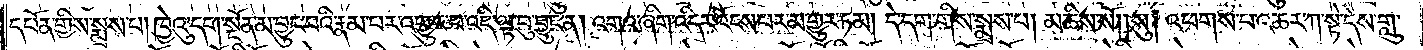དཔོན་གྱིས་སྨྲས་པ། ཁྱེའུ་དག་སྔོན་མ་བྱུང་བའི་རྣམ་པར་འགྱུར་བ་འདི་ལྟ་བུ་བྱུང་ན། འགའ་ཞིག་འདིར་འོངས་པར་མ་གྱུར་ཏམ། དེ་དག་གིས་སྨྲས་པ། མཆིས་སོ། །སུ། འཕགས་པ་འཆར་ཀ་སྟེ་དེས་གླུ་
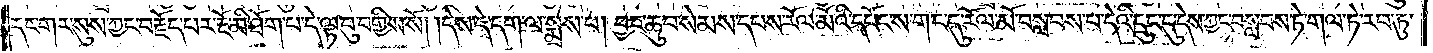དང་གར་སུས་ཀྱང་བརྗོད་པར་རྔོ་མི་ཐོག་པ་དེ་ལྟ་བུ་བགྱིས་སོ། །དེས་དེ་དག་ལ་སྨྲས་པ། བྱང་ཆུབ་སེམས་དཔས་རོལ་མོའི་དཔོང་ས་གང་དུ་རོལ་མོ་བསླབས་པ་དེའི་དྲུང་དུ་དེས་ཀྱང་བསླབས་ཏེ་གལ་ཏེ་རབ་ཏུ་
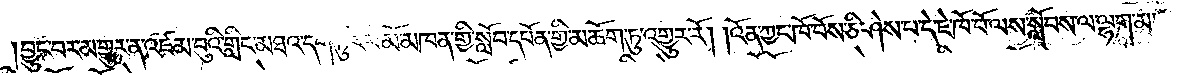བྱུང་བར་མ་གྱུར་ན་འཛམ་བུའི་གླིང་མཐའ་དག་ཏུ་རོལ་མོ་མཁན་གྱི་སློབ་དཔོན་གྱི་མཆོག་ཏུ་འགྱུར་རོ། །འོན་ཀྱང་ཁོ་བོས་ཅི་ཤེས་པ་དེ་ཇེ་ཁོ་བོ་ལས་སློབས་ལ་ལྷག་མ་
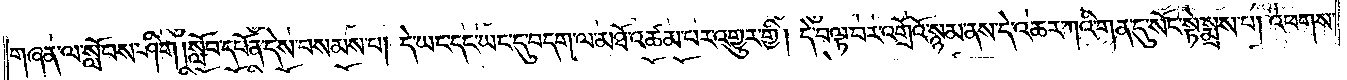གཞན་ལ་སློབས་ཤིག །སློབ་དཔོན་དེས་བསམས་པ། དེ་ཡང་དང་ཡང་དུ་བདག་ལ་མཐོ་འཚམ་པར་འགྱུར་གྱི། དེ་བལྟ་བར་འགྲོའོ་སྙམ་ནས་དེ་འཆར་ཀའི་གན་དུ་སོང་སྟེ་སྨྲས་པ། འཕགས་
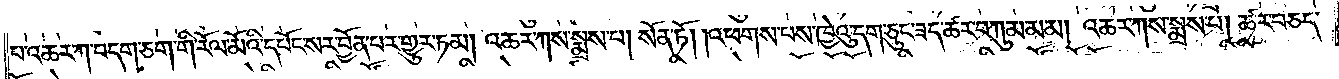པ་འཆར་ཀ་བདག་ཅག་གི་རོལ་མོའི་དཔོང་སར་བྱོན་པར་གྱུར་ཏམ། འཆར་ཀས་སྨྲས་པ། སོན་ཏོ། །འཕགས་པས་ཁྱེའུ་དག་ཅུང་ཟད་ཚར་བཀུམ་མམ། འཆར་ཀས་སྨྲས་པ། ཚར་བཅད་
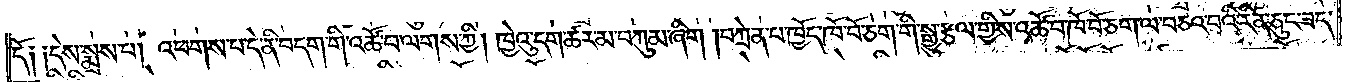དོ༑ ༑དེས་སྨྲས་པ། འཕགས་པ་དེ་ནི་བདག་གི་འཚོ་བ་ལགས་ཀྱི། ཁྱེའུ་དག་ཚར་མ་བཀུམ་ཞིག །བཀྲེན་པ་ཁྱོད་ཁོ་བོ་ཅག་གི་སྒྱུ་རྩལ་གྱིས་འཚོ་བ་ཁོ་བོ་ཅག་ལ་བཅའ་བའི་རིན་ཅུང་ཟད་
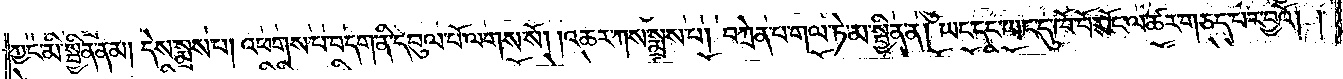ཀྱང་མི་སྦྱིན་ནམ། དེས་སྨྲས་པ། འཕགས་པ་བདག་ནི་དབུལ་པོ་ལགས་སོ། །འཆར་ཀས་སྨྲས་པ། བཀྲེན་པ་གལ་ཏེ་མ་སྦྱིན་ན། ཡང་དང་ཡང་དུ་ཁོ་བོ་སོང་ལ་ཚར་གཅད་པར་བྱའོ། །
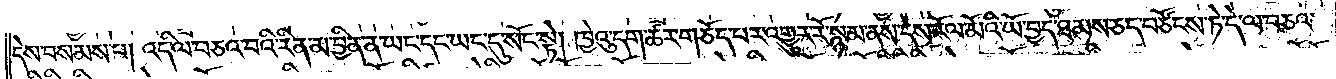དེས་བསམས་པ། འདི་ལ་བཅའ་བའི་རིན་མ་བྱིན་ན་ཡང་དང་ཡང་དུ་སོང་སྟེ། ཁྱེའུ་དག་ཚར་གཅོད་པར་འགྱུར་རོ་སྙམ་ནས་དེས་རོལ་མོའི་ཡོ་བྱད་ཐམས་ཅད་བཙོངས་ཏེ་དེ་ལ་བཅའ་
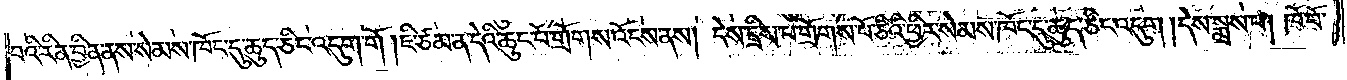བའི་རིན་བྱིན་ནས་སེམས་ཁོང་དུ་ཆུད་ཅིང་འདུག་གོ །ཇི་ཙམ་ན་དེའི་ཆུང་པོ་གྲོགས་འོངས་ནས། དེས་དྲིས་པ་གྲོགས་པོ་ཅིའི་ཕྱིར་སེམས་ཁོང་དུ་ཆུད་ཅིང་འདུག །དེས་སྨྲས་པ། ཁོ་བོ་
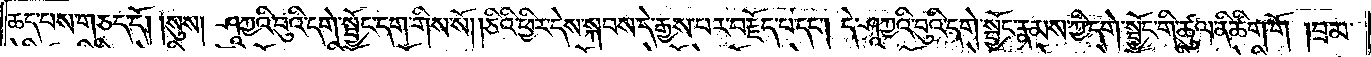ཆད་པས་གཅད་དོ། །སུས། ཤཱཀྱའི་བུའི་དགེ་སྦྱོང་དག་གིས་སོ། །ཅིའི་ཕྱིར་དེས་སྐབས་དེ་རྒྱས་པར་བརྗོད་པ་དང༌། དེ་ཤཱཀྱའི་བུའི་དགེ་སྦྱོང་རྣམས་ཀྱི་དགེ་སྦྱོང་གི་ཚུལ་ནི་ཚིག་གོ །བྲམ་
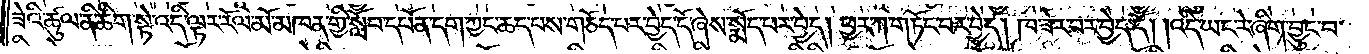ཟེའི་ཚུལ་ནི་ཚིག་སྟེ་འདི་ལྟར་རོལ་མོ་མཁན་གྱི་སློབ་དཔོན་དག་ཀྱང་ཆད་པས་གཅོད་པར་བྱེད་དོ་ཞེས་སྨོད་པར་བྱེད། ཕྱར་ཀ་གཏོང་བར་བྱེད། ཁ་ཟེར་བར་བྱེད་དོ། །འདི་ཡང་རེ་ཞིག་བྱུང་བ་
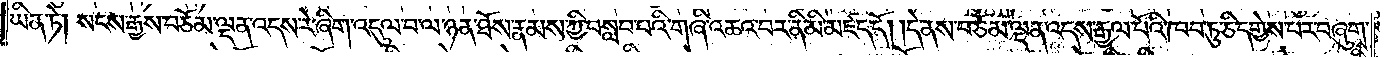ཡིན་ཏེ། སངས་རྒྱས་བཅོམ་ལྡན་འདས་རེ་ཞིག་འདུལ་བ་ལ་ཉན་ཐོས་རྣམས་ཀྱི་བསླབ་པའི་གཞི་འཆའ་བར་ནི་མི་མཛད་དོ། །དེ་ནས་བཅོམ་ལྡན་འདས་རྒྱལ་པོའི་ཁབ་ཏུ་ཅི་དགྱེས་པར་བཞུགས་
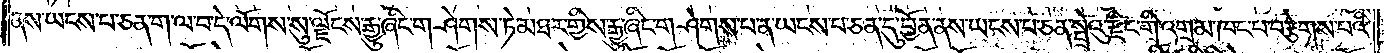ནས་ཡངས་པ་ཅན་ག་ལ་བ་དེ་ལོགས་སུ་ལྗོངས་རྒྱུ་ཞིང་གཤེགས་ཏེ་མཐར་གྱིས་རྒྱུ་ཞིང་གཤེགས་པ་ན་ཡངས་པ་ཅན་དུ་བྱོན་ནས་ཡངས་པ་ཅན་སྤྲེའུ་རྫིང་གི་འགྲམ་ཁང་པ་བརྩེགས་པའི་
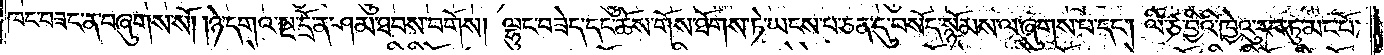ཁང་བཟང་ན་བཞུགས་སོ། །ཉེ་དགའ་སྔ་དྲོ་ན་ཤམ་ཐབས་བགོས། ལྷུང་བཟེད་དང་ཆོས་གོས་ཐོགས་ཏེ་ཡངས་པ་ཅན་དུ་བསོད་སྙོམས་ལ་ཞུགས་པ་དང༌། ལི་ཙ་བྱིའི་ཁྱེའུ་རབ་ཏུ་མང་པོ་
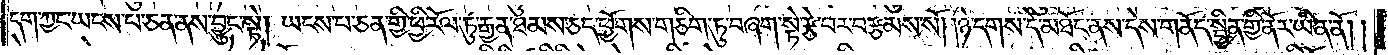དག་ཀྱང་ཡངས་པ་ཅན་ནས་བྱུང་སྟེ། ཡངས་པ་ཅན་གྱི་ཕྱི་རོལ་ཏུ་རྒྱན་ཐམས་ཅད་ཕྱོགས་གཅིག་ཏུ་བཞག་སྟེ་རྩེ་བར་བརྩམས་སོ། །ཉེ་དགས་དེ་མཐོང་ནས་དེས་གནོད་སྦྱིན་གྱི་ནོར་ཡིན་ནོ། །
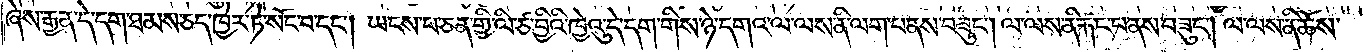ཞེས་རྒྱན་དེ་དག་ཐམས་ཅད་ཁྱེར་ཏེ་སོང་བ་དང༌། ཡངས་པ་ཅན་གྱི་ལི་ཙ་བྱིའི་ཁྱེའུ་དེ་དག་གིས་ཉེ་དགའ་ལ་ལས་ནི་ལག་པ་ནས་བཟུང༌། ལ་ལས་ནི་རྐང་པ་ནས་བཟུང༌། ལ་ལས་ནི་ཆོས་
